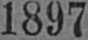1897
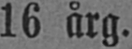16 årg.
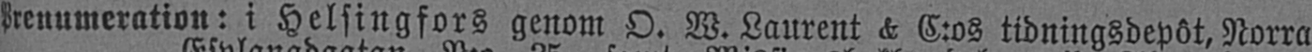Prenumeration: i Helsingfors genom O. W. Laurent & C:os tidningsdepôt, Norra
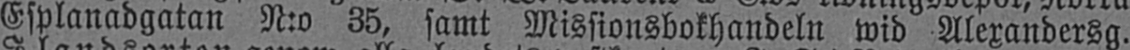Esplanadgatan N:o 35, samt Missionsbokhandeln wid Alexandersg.
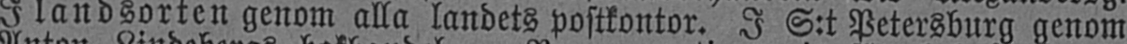I landsorten genom alla landets postkontor. I S:t Petersburg genom
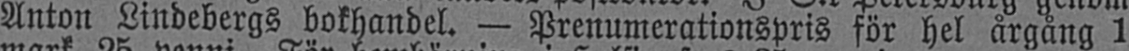Anton Lindebergs bokhandel. - Prenumerationspris för hel årgång 1
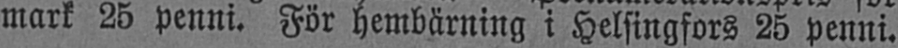mark 25 penni. För hembärning i Helsingfors 25 penni.
